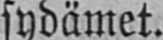sydämet.
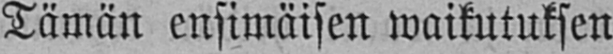Tämän ensimäisen waikutuksen
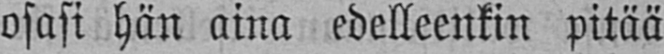osasi hän aina edelleenkin pitää
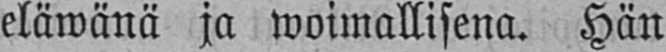eläwänä ja woimallisena. Hän
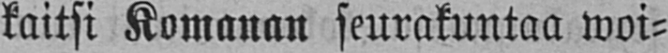kaitsi Komanan seurakuntaa woi-
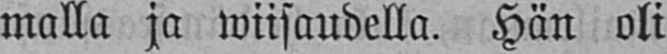malla ja wiisaudella. Hän oli
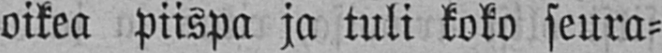oikea piispa ja tuli koko seura-
